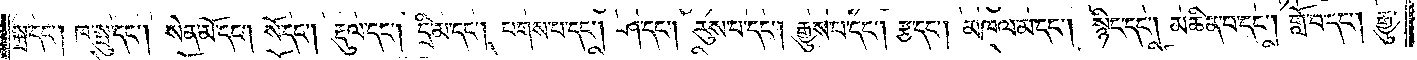སྐྲ་དང༌། ཁ་སྤུ་དང༌། སེན་མོ་དང༌། སོ་དང༌། རྡུལ་དང༌། དྲི་མ་དང༌། པགས་པ་དང༌། ཤ་དང༌། རུས་པ་དང༌། རྒྱུས་པ་དང༌། རྩ་དང༌། མཁལ་མ་དང༌། སྙིང་དང༌། མཆིན་པ་དང༌། གློ་བ་དང༌། རྒྱུ་
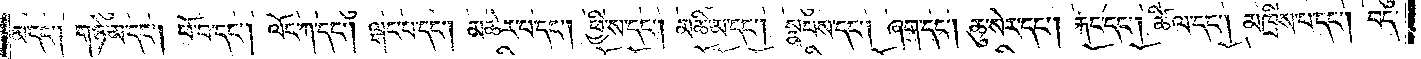མ་དང༌། གཉེ་མ་དང༌། ཕོ་བ་དང༌། ལོང་ཀ་དང༌། ལྒང་པ་དང༌། མཚེར་པ་དང༌། ཕྱི་ས་དང༌། མཆི་མ་དང༌། སྣབས་དང༌། ཞག་དང༌། ཆུ་སེར་དང༌། རྐང་དང༌། ཚིལ་དང༌། མཁྲིས་པ་དང༌། བད་
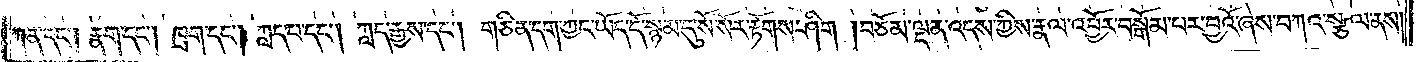ཀན་དང༌། རྣག་དང༌། ཁྲག་དང༌། ཀླད་པ་དང༌། ཀླད་རྒྱས་དང༌། གཅིན་དག་ཀྱང་ཡོད་དོ་སྙམ་དུ་སོ་སོར་རྟོགས་ཤིག །བཅོམ་ལྡན་འདས་ཀྱིས་རྣལ་འབྱོར་བསྒོམ་པར་བྱའོ་ཞེས་བཀའ་སྩལ་ནས།
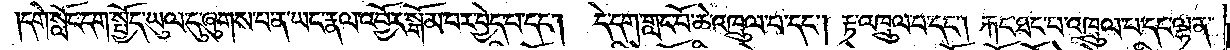དགེ་སློང་དག་སྤྱོད་ཡུལ་དུ་ཞུགས་པ་ན་ཡང་རྣལ་འབྱོར་སྒོམ་པར་བྱེད་པ་དང༌། དེ་དག་གླང་པོ་ཆེ་འཁྲུལ་པ་དང༌། རྟ་འཁྲུལ་པ་དང༌། རྐང་ཐང་པ་འཁྲུལ་པ་དང་ལྷན་
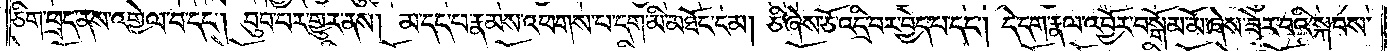ཅིག་ཕྲད་ནས་འགྱེལ་བ་དང༌། བུབ་པར་གྱུར་ནས། མ་དད་པ་རྣམས་འཕགས་པ་དག་མི་མཐོང་ངམ། ཅི་ཞེས་ཅོ་འདྲི་བར་བྱེད་པ་དང༌། དེ་དག་རྣལ་འབྱོར་བསྒོམ་མོ་ཞེས་ཟེར་བའི་སྐབས་
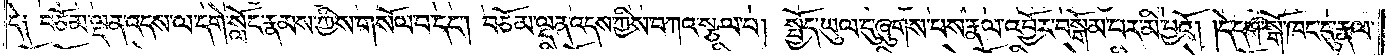དེ༑ བཅོམ་ལྡན་འདས་ལ་དགེ་སློང་རྣམས་ཀྱིས་གསོལ་བ་དང༌། བཅོམ་ལྡན་འདས་ཀྱིས་བཀའ་སྩལ་པ། སྤྱོད་ཡུལ་དུ་ཞུགས་པས་རྣལ་འབྱོར་བསྒོམ་པར་མི་བྱའོ། །དེ་དག་སྒོ་ཁང་དུ་རྣལ་
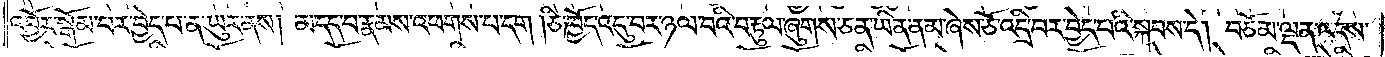འབྱོར་སྒོམ་པར་བྱེད་པ་ན་ཡུར་ནས། མ་དད་པ་རྣམས་འཕགས་པ་དག །ཅི་ཁྱོད་འདུ་བར་ཉལ་བའི་བརྟུལ་ཞུགས་ཅན་ཡིན་ནམ་ཞེས་ཅོ་འདྲི་བར་བྱེད་པའི་སྐབས་དེ། བཅོམ་ལྡན་འདས་
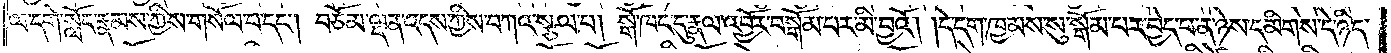ལ་དགེ་སློང་རྣམས་ཀྱིས་གསོལ་བ་དང༌། བཅོམ་ལྡན་འདས་ཀྱིས་བཀའ་སྩལ་པ། སྒོ་ཁང་དུ་རྣལ་འབྱོར་བསྒོམ་པར་མི་བྱའོ། །དེ་དག་ཁྱམས་སུ་སྒོམ་པར་བྱེད་པ་ན་ཉེས་དམིགས་དེ་ཉིད་
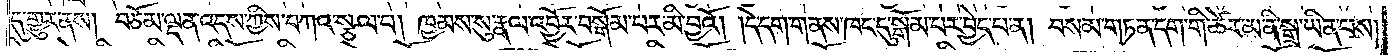དུ་གྱུར་ནས། བཅོམ་ལྡན་འདས་ཀྱིས་བཀའ་སྩལ་པ། ཁྱམས་སུ་རྣལ་འབྱོར་བསྒོམ་པར་མི་བྱའོ། །དེ་དག་གནས་ཁང་དུ་སྒོམ་པར་བྱེད་པ་ན། བསམ་གཏན་དག་གི་ཚེར་མ་ནི་སྒྲ་ཡིན་པས།
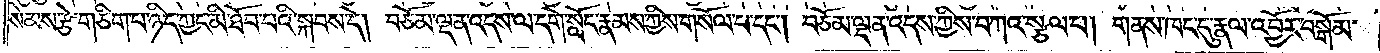སེམས་རྩེ་གཅིག་པ་ཉིད་ཀྱང་མི་ཐོབ་པའི་སྐབས་དེ། བཅོམ་ལྡན་འདས་ལ་དགེ་སློང་རྣམས་ཀྱིས་གསོལ་བ་དང༌། བཅོམ་ལྡན་འདས་ཀྱིས་བཀའ་སྩལ་པ། གནས་ཁང་དུ་རྣལ་འབྱོར་སྒོམ་
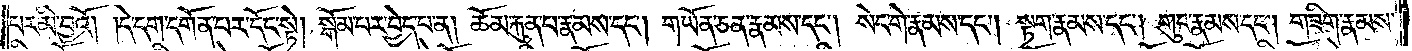པར་མི་བྱའོ། །དེ་དག་དགོན་པར་དོང་སྟེ། སྒོམ་པར་བྱེད་པ་ན། ཆོམ་རྐུན་པ་རྣམས་དང༌། གཡོན་ཅན་རྣམས་དང༌། སེང་གེ་རྣམས་དང༌། སྟག་རྣམས་དང༌། གུང་རྣམས་དང༌། གཟིག་རྣམས་
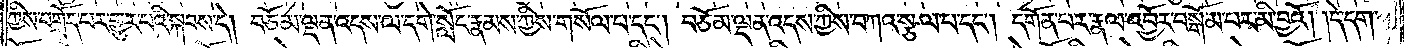ཀྱིས་བགྲོད་པར་གྱུར་པའི་སྐབས་དེ། བཅོམ་ལྡན་འདས་ལ་དགེ་སློང་རྣམས་ཀྱིས་གསོལ་པ་དང༌། བཅོམ་ལྡན་འདས་ཀྱིས་བཀའ་སྩལ་པ་དང༌། དགོན་པར་རྣལ་འབྱོར་བསྒོམ་པར་མི་བྱའོ། །དེ་དག་
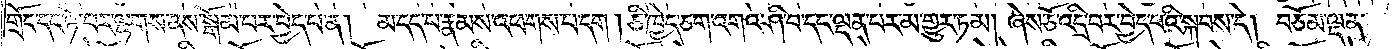གྲོང་དང་ཉེ་བར་ལྷགས་ནས་སྒོམ་པར་བྱེད་པ་ན། མ་དད་པ་རྣམས་འཕགས་པ་དག །ཅི་ཁྱེད་ཅག་འགའ་ཤི་བ་དང་ལྡན་པར་མ་གྱུར་ཏམ། ཞེས་ཅོ་འདྲི་བར་བྱེད་པའི་སྐབས་དེ། བཅོམ་ལྡན་
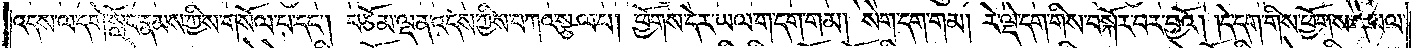འདས་ལ་དགེ་སློང་རྣམས་ཀྱིས་གསོལ་པ་དང༌། བཅོམ་ལྡན་འདས་ཀྱིས་བཀའ་སྩལ་པ། ཕྱོགས་དེར་ཡལ་ག་དག་གམ། སེག་དག་གམ། རེ་ལྡེ་དག་གིས་བསྐོར་བར་བྱའོ། །དེ་དག་གིས་ཕྱོགས་དེ་ཡལ་
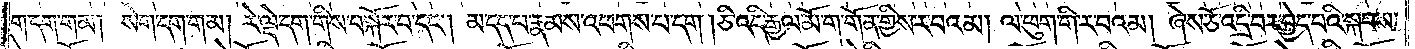ག་དག་གམ། སེག་དག་གམ། རེ་ལྡེ་དག་གིས་བསྐོར་བ་དང༌། མ་དད་པ་རྣམས་འཕགས་པ་དག །ཅི་འདི་རྒྱལ་མོ་ག་གོན་གྱིས་ར་བའམ། ལ་ཕུག་གི་ར་བའམ། ཞེས་ཅོ་འདྲི་བར་བྱེད་པའི་སྐབས་
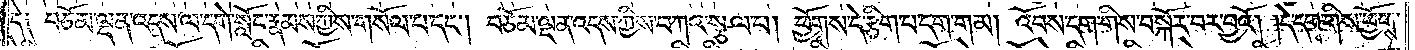དེ༏ བཅོམ་ལྡན་འདས་ལ་དགེ་སློང་རྣམས་ཀྱིས་གསོལ་པ་དང༌། བཅོམ་ལྡན་འདས་ཀྱིས་བཀའ་སྩལ་པ། ཕྱོགས་དེ་རྩིག་པ་དག་གམ། འོབས་དག་གིས་བསྐོར་བར་བྱའོ། །དེ་དག་གིས་ཕྱོགས་
